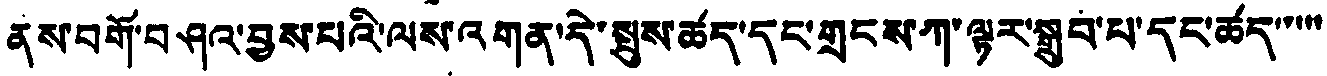ནས་བགོ་བཤའ་བྱས་པའི་ལས་འགན་དེ་སྤུས་ཚད་དང་གྲངས་ཀ་ལྟར་སྒྲུབ་པ་དང་ཚད་་་་་
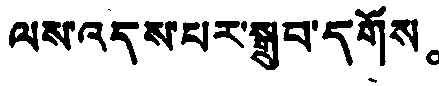ལས་འདས་པར་སྒྲུབ་དགོས。
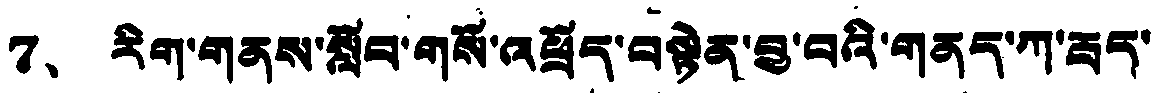7、 རིག་གནས་སློབ་གསོ་འཕྲོད་བསྟེན་བྱ་བའི་གནད་ཀ་རྦད་
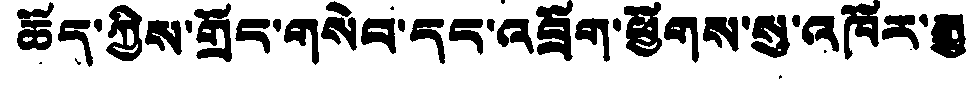ཆོད་ཀྱིས་གྲོང་གསེལ་དང་འབྲོག་ཕྱོགས་སུ་འཁོར་རྒྱུ
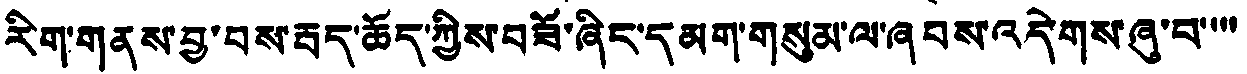རིག་གནས་བྱ་བས་རྦད་ཆོད་ཀྱིས་བཟོ་ཞིང་དམག་གསུམ་ལ་ཞབས་འདེགས་ཞུ་བ་་་་
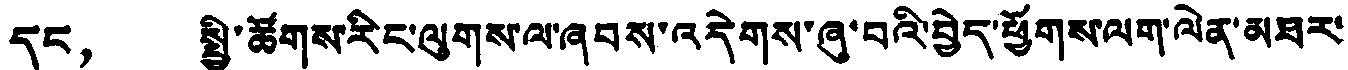དང， སྤྱི་ཚོགས་རིང་ལུགས་ལ་ཞབས་འདེགས་ཞུ་བའི་བྱེད་ཕྱོགས་ལག་ལེན་མཐར་
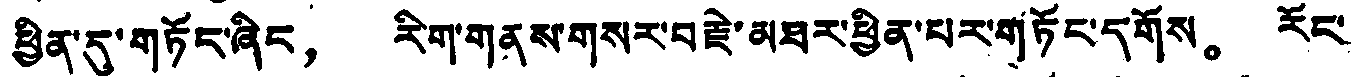ཕྱིན་དུ་གཏོང་ཞིང，  རིག་གནས་གསར་བརྗེ་མཐར་ཕྱིན་པར་གཏོང་དགོས。 རོང་
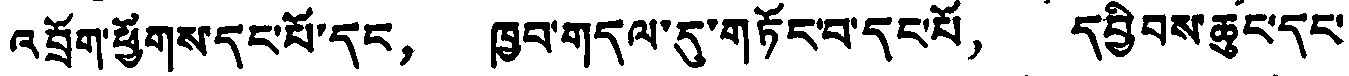འབྲོག་ཕྱོགས་དང་པོ་དང， ཁྱབ་གདལ་དུ་གཏོང་བ་དང་པོ， དབྱིབས་ཆུང་དང་
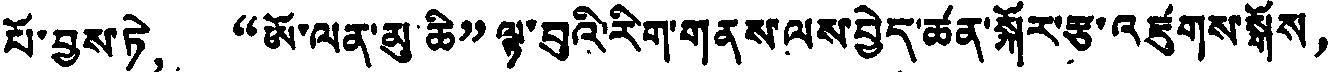པོ་བྱས་ཏེ， “ཨོ་ལན་མུ་ཆི” ལྟ་བུའི་རིག་གནས་ལས་བྱེད་ཚན་སྐོར་རྩ་འཛུགས་སྒོས，
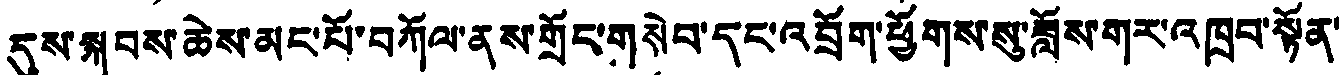དུས་སྐབས་ཆེས་མང་པོ་བཀོལ་ནས་གྲོང་གསེབ་དང་འབྲོག་ཕྱོགས་སུ་ཟློས་གར་འཁྲབ་སྟོན་
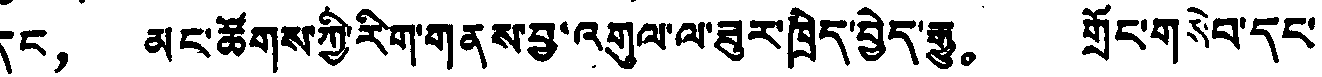དང， མང་ཚོགས་ཀྱི་རིག་གནས་བྱ་འགུལ་ལ་ཟུར་ཁྲིད་བྱེད་རྒྱུ。 གྲོང་གསེབ་དང་
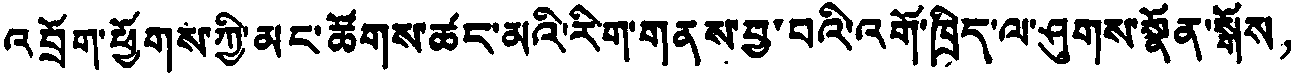འབྲོག་ཕྱོགས་ཀྱི་མང་ཚོགས་ཚང་མའི་རིག་གནས་བྱ་བའི་འགོ་ཁྲིད་ལ་ཤུགས་སྣོན་སྒོས，
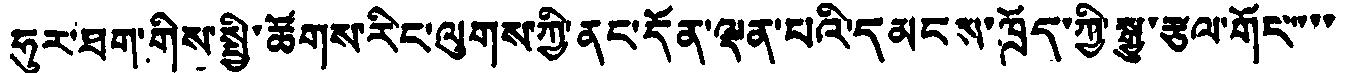ཧུར་ཐག་གིས་སྤྱི་ཚོགས་རིང་ལུགས་ཀྱི་ནང་དོན་ལྡན་པའི་དམངས་ཁྲོད་ཀྱི་སྒྱུ་རྩལ་གོང་་་་
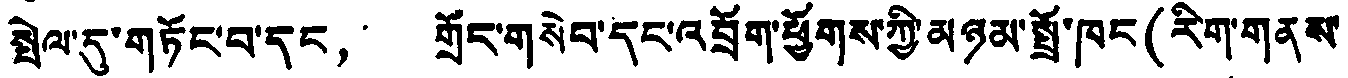སྤེལ་དུ་གཏོང་བ་དང， གྲོང་གསེབ་དང་འབྲོག་ཕྱོགས་ཀྱི་མཉམ་སྤྲོ་ཁང (རིག་གནས་
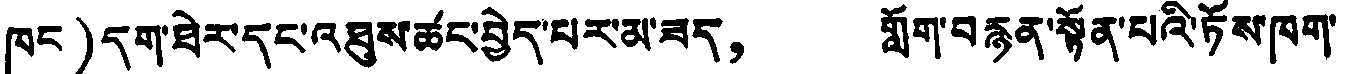ཁང)དག་ཐེར་དང་འཐུས་ཚང་བྱེད་པར་མ་ཟད， གློག་བརྙན་སྟོན་པའི་ཏོས་ཁག་
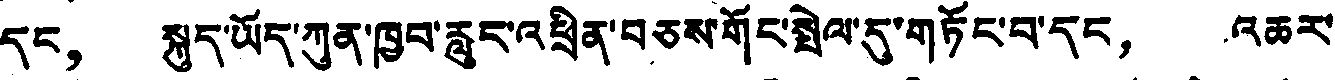དང， སྐུད་ཡོད་ཀུན་ཁྱབ་རླུང་འཕྲིན་བཅས་གོང་སྤེལ་དུ་གཏོང་བ་དང， འཆར་
